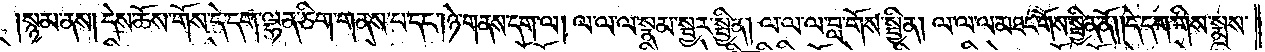སྙམ་ནས། དེས་ཆོས་གོས་དེ་དག་ལྷན་ཅིག་གནས་པ་དང༌། ཉེ་གནས་དག་ལ། ལ་ལ་ལ་སྣམ་སྦྱར་སྦྱིན། ལ་ལ་ལ་བླ་གོས་སྦྱིན། ལ་ལ་ལ་མཐང་གོས་སྦྱིན་ནོ། །དེ་དག་གིས་སྨྲས་
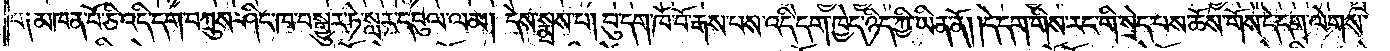པ། མཁན་པོ་ཅི་འདི་དག་བཀྲུས་ཤིང་ཁ་བསྒྱུར་ཏེ་སླར་དབུལ་ལམ། དེས་སྨྲས་པ། བུ་དག་ཁོ་བོ་རྒས་པས་འདི་དག་ཁྱེད་ཉིད་ཀྱི་ཡིན་ནོ། །དེ་དག་གིས་རང་གི་སྲེད་པས་ཆོས་གོས་དེ་དག་ལེགས་
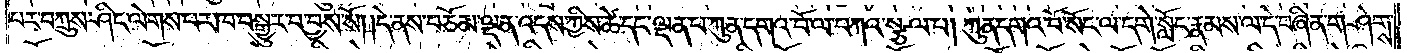པར་བཀྲུས་ཤིང་ལེགས་པར་ཁ་བསྒྱུར་བ་བྱས་སོ། །དེ་ནས་བཅོམ་ལྡན་འདས་ཀྱིས་ཚེ་དང་ལྡན་པ་ཀུན་དགའ་བོ་ལ་བཀའ་སྩལ་པ། ཀུན་དགའ་བོ་སོང་ལ་དགེ་སློང་རྣམས་ལ་དེ་བཞིན་གཤེགས་
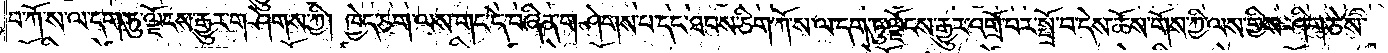པ་ཀོ་ས་ལ་དག་ཏུ་ལྗོངས་རྒྱུར་གཤེགས་ཀྱི། ཁྱེད་ཅག་ལས་གང་དེ་བཞིན་གཤེགས་པ་དང་ཐབས་ཅིག་ཀོ་ས་ལ་དག་ཏུ་ལྗོངས་རྒྱུར་འགྲོ་བར་སྤྲོ་བ་དེས་ཆོས་གོས་ཀྱི་ལས་གྱིས་ཤིག་ཅེས་
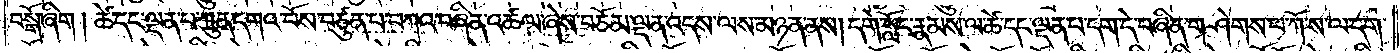བསྒོ་ཞིག །ཚེ་དང་ལྡན་པ་ཀུན་དགའ་བོས་བཙུན་པ་བཀའ་བཞིན་འཚལ་ཞེས་བཅོམ་ལྡན་འདས་ལས་མཉན་ནས། དགེ་སློང་རྣམས་ལ་ཚེ་དང་ལྡན་པ་དག་དེ་བཞིན་གཤེགས་པ་ཀོ་ས་ལ་དག་
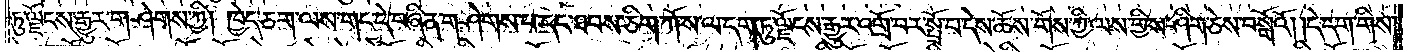ཏུ་ལྗོངས་རྒྱུར་གཤེགས་ཀྱི། ཁྱེད་ཅག་ལས་གང་དེ་བཞིན་གཤེགས་པ་དང་ཐབས་ཅིག་ཀོ་ས་ལ་དག་ཏུ་ལྗོངས་རྒྱུར་འགྲོ་བར་སྤྲོ་བ་དེས་ཆོས་གོས་ཀྱི་ལས་གྱིས་ཤིག་ཅེས་བསྒོའོ། །དེ་དག་གིས་
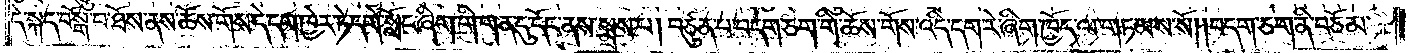དེ་སྐད་བསྒོ་བ་ཐོས་ནས་ཆོས་གོས་དེ་དག་ཁྱེར་ཏེ་དགེ་སློང་ཞིག་གི་གན་དུ་དོང་ནས་སྨྲས་པ། བཙུན་པ་བདག་ཅག་གི་ཆོས་གོས་འདི་དག་རེ་ཞིག་ཁྱོད་ལ་གཏམས་སོ། །བདག་ཅག་ནི་བཅོམ་
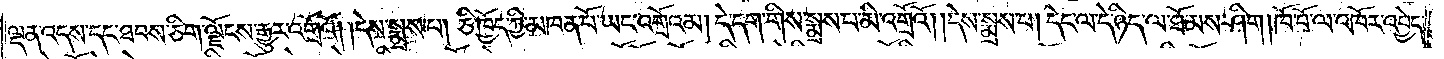ལྡན་འདས་དང་ཐབས་ཅིག་ལྗོངས་རྒྱུར་འགྲོའོ། །དེས་སྨྲས་པ། ཅི་ཁྱོད་ཀྱི་མཁན་པོ་ཡང་འགྲོའམ། དེ་དག་གིས་སྨྲས་པ་མི་འགྲོའོ། །དེས་སྨྲས་པ། དེང་ལ་དེ་ཉིད་ལ་ཐོམས་ཤིག །ཁོ་བོ་ལ་འཁོར་འབྱེད་
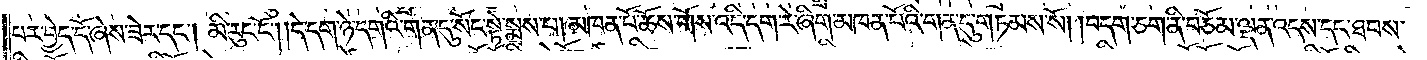པར་བྱེད་དོ་ཞེས་ཟེར་དང༌། མི་རུང་ངོ༌། །དེ་དག་ཉེ་དགའི་གན་དུ་སོང་སྟེ་སྨྲས་པ། མཁན་པོ་ཆོས་གོས་འདི་དག་རེ་ཞིག་མཁན་པོའི་གན་དུ་གཏམས་སོ། །བདག་ཅག་ནི་བཅོམ་ལྡན་འདས་དང་ཐབས་
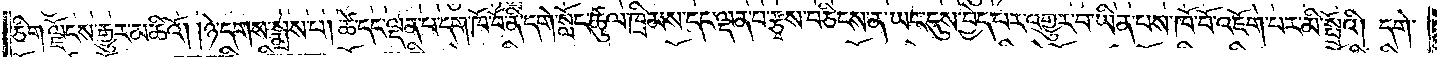ཅིག་ལྗོངས་རྒྱུར་མཆིའོ། །ཉེ་དགས་སྨྲས་པ། ཚེ་དང་ལྡན་པ་དག་ཁོ་བོ་ནི་དགེ་སློང་ཚུལ་ཁྲིམས་དང་ལྡན་པ་རྩྭས་བཅིངས་ན་ཡང་དུས་བྱེད་པར་འགྱུར་བ་ཡིན་པས་ཁོ་བོ་འཇོག་པར་མི་སྤྲོའི། དགེ་
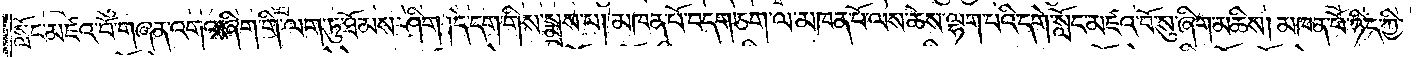སློང་མཛའ་བོ་གཞན་འགའ་ཞིག་གི་ལག་ཏུ་ཐོམས་ཤིག །དེ་དག་གིས་སྨྲས་པ། མཁན་པོ་བདག་ཅག་ལ་མཁན་པོ་ལས་ཆོས་ལྷག་པའི་དགེ་སློང་མཛའ་བོ་སུ་ཞིག་མཆིས། མཁན་པོ་ཉིད་ཀྱི་
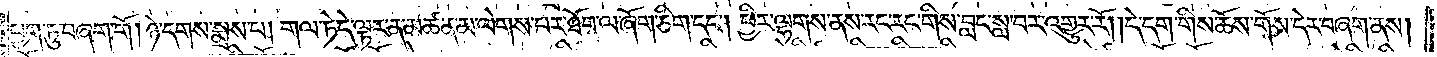ཕྱག་ཏུ་བཞག་གོ །ཉེ་དགས་སྨྲས་པ། གལ་ཏེ་དེ་ལྟར་ན་མཚན་མ་ལེགས་པར་ཐོབ་ལ་ཞོག་ཅིག་དང༌། ཕྱིར་ལྷགས་ནས་རང་རང་གིས་བླང་སླ་བར་འགྱུར་རོ། །དེ་དག་གིས་ཆོས་གོས་དེར་བཞག་ནས།
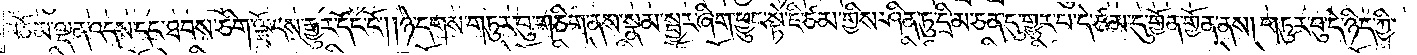བཅོམ་ལྡན་འདས་དང་ཐབས་ཅིག་ལྗོངས་རྒྱུར་དོང་ངོ༌། །ཉེ་དགས་གཏུར་བུ་གཅིག་ནས་སྣམ་སྦྱར་ཞིག་ཕྱུང་སྟེ་ཇི་ཙམ་གྱིས་ཤིན་ཏུ་དྲི་མ་ཅན་དུ་གྱུར་པ་དེ་ཙམ་དུ་གྱོན་གྱོན་ནས། གཏུར་བུ་དེ་ཉིད་ཀྱི་
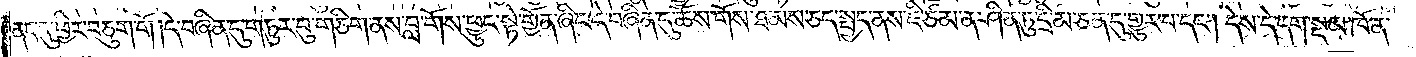ནང་དུ་ཕྱིར་བཅུག་གོ །དེ་བཞིན་དུ་གཏུར་བུ་གཅིག་ནས་བླ་གོས་ཕྱུང་སྟེ་གྱོན་ཞིང་དེ་བཞིན་དུ་ཆོས་གོས་ཐམས་ཅད་སྤྱད་ནས་ཇི་ཙམ་ན་ཤིན་ཏུ་དྲི་མ་ཅན་དུ་གྱུར་པ་དང༌། དེས་དེ་དག་སྔ་མ་ཁོ་ན་
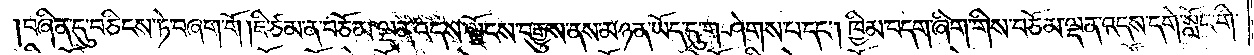བཞིན་དུ་བཅིངས་ཏེ་བཞག་གོ །ཇི་ཙམ་ན་བཅོམ་ལྡན་འདས་ལྗོངས་བརྒྱུས་ནས་མཉན་ཡོད་དུ་གཤེགས་པ་དང༌། ཁྱིམ་བདག་ཞིག་གིས་བཅོམ་ལྡན་འདས་དགེ་སློང་གི་
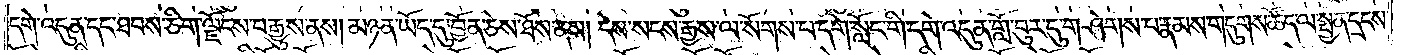དགེ་འདུན་དང་ཐབས་ཅིག་ལྗོངས་བརྒྱུས་ནས། མཉན་ཡོད་དུ་བྱོན་ཅེས་ཐོས་ནས། དེས་སངས་རྒྱས་ལ་སོགས་པ་དགེ་སློང་གི་དགེ་འདུན་གློ་བུར་དུ་གཤེགས་པ་རྣམས་གདུགས་ཚོད་ལ་སྤྱན་དྲངས་
